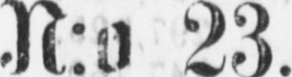N:o 23
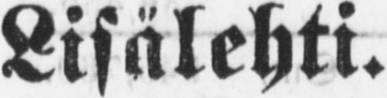Lisälehti.
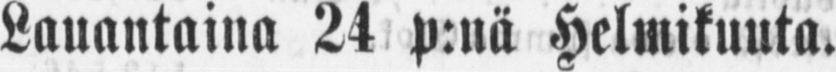Lauantaina 24 p:nä Helmikuuta.
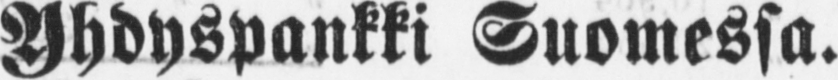Yhdyspankki Suomessa.
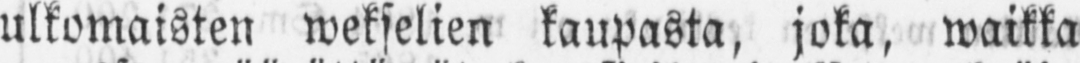ulkomaisten wekselien kaupasta, joka, waikka
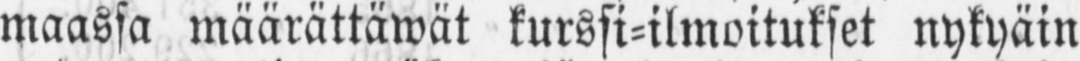maassa määrättäwät kurssi-ilmoitukset nykyäin
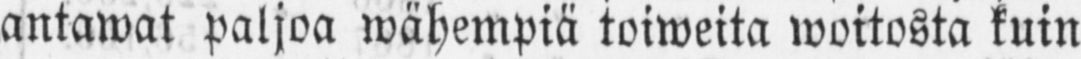antawat paljoa wähempiä toiweita woitosta kuin
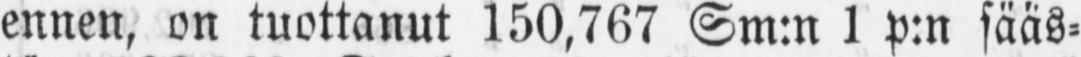ennen, on tuottanut 150,767 Sm:n 1 p:n sääs-
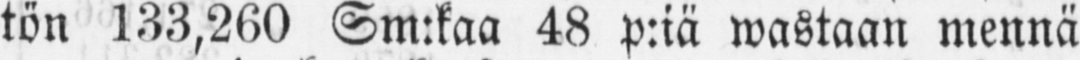tön 133,260 Sm:kaa 48 p:iä wastaan mennä
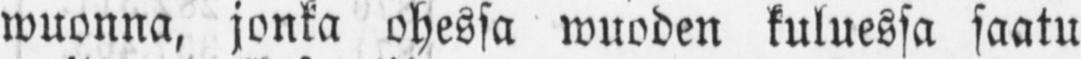wuonna, jonka ohessa wuoden kuluessa saatu
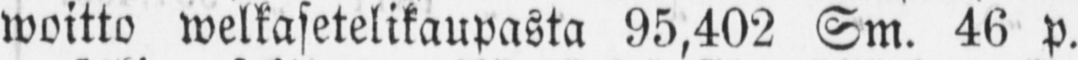woitto welkasetelikaupasta 95,402 Sm. 46 p.
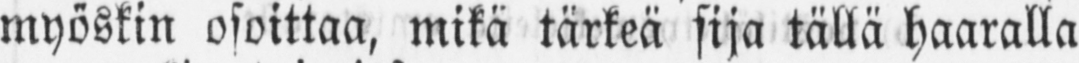myöskin osoittaa, mikä tärkeä sija tällä haaralla
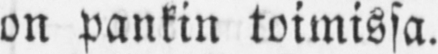on pankin toimissa.
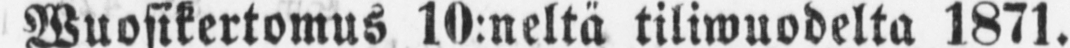Wuosikertomus 10:neltä tiliwuodelta 1871.
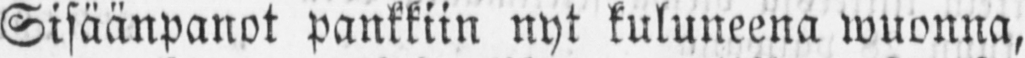Sisäänpanot pankkiin nyt kuluneena wuonna,
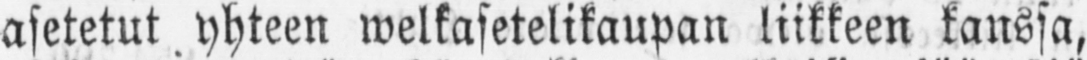asetetut yhteen welkasetelikaupan liikkeen kanssa,
